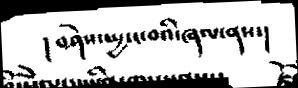། བཤེས་སྤྱ་ང་བའི་ཞལ་ནས་།
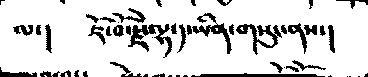ལ་།   ཇོ་བོ་རྗེ་ལྷ་༡་ཡིན་གསུང་ནས་།
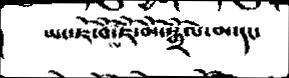ཡང་ཇོ་བོ་དང་ཇོ་མོ་སྒྲོལ་མ་དང་
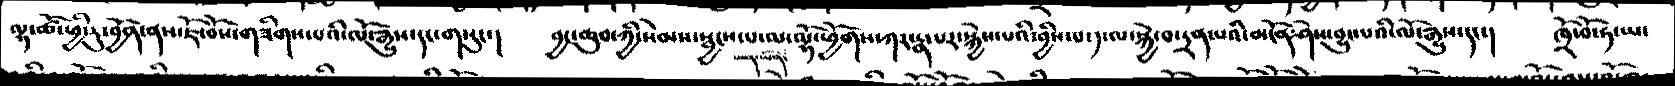ལྷ་ཚོ་ཕྱི་རུ་བྱོན་ནས་ཇོ་བོས་གཟིགས་པའི་ལོ་རྒྱུས་དང་གསུང་།    བྱང་ཆུབ་ཀྱི་སེམས་པ་ལ་ཡན་ཡིན་ལྷོ་ཕྱོགས་པར་རྣ་པར་སྐྱེས་པའི་བྱིས་པ་༡་ལ་སྐྱེ་བ་དྲན་པའི་མངོན་ཤེས་བྱུང་པའི་ལོ་རྒྱུས་དང་།   ཁྲོ་བོ་ཏ་ཡ་
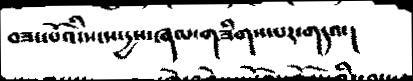བཟང་པོའི་སངས་དྱས་ཞལ་གཟིགས་པར་གདའ་།
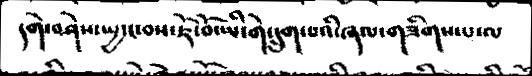དག་བཤེས་སྤྱ་ང་བས་ཇོ་བོས་ཡི་གེ་དྲུག་པའ་ཞལ་གཟིགས་པ་ལ
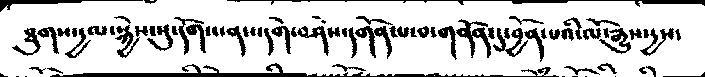ཐུགས་དྱལ་སྐྱེས་སུ་དོགས་ནས་དགེ་བཤེས་དགོན་པ་བ་གནོན་དུ་བྱོན་པའི་ལོ་རྒྱུས་དྱས་
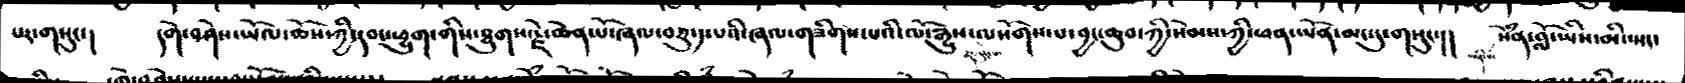པར་གསུང་།    དགེ་བཤེས་ཡོལ་ཆོས་ཀྱི་དབང་ཕྱུག་གིས་ཐུགས་རྗེ་ཆེན་པོ་ཞལ་བཅུ་༡་པའི་ཞལ་གཟིགས་པའི་ལོ་རྒྱུས་ལསོགས་པ་བྱང་ཆུབ་ཀྱི་སེམས་ཀྱི་ཕན་ཡོན་མང་དུ་གསུང་།།  སེཾན་བློ་ཡིས་མི་སྤང་
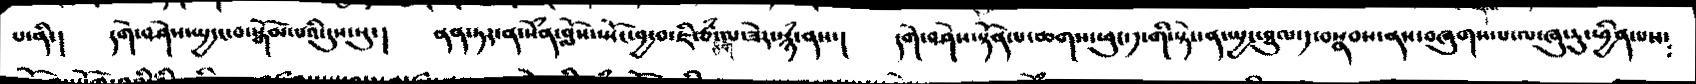པ་ནི་།   དགེ་བཤེས་སྤྱ་ང་བ་སྒོམ་པའི་དུས་སུ་།  ནན་ཏར་ན་སེཾན་བློས་སྤོང་བྱ་བ་ཇི་ཙཾ་ཅིག་ལ་ཟེར་སྙཾ་ནས་།   དགེ་བཤེས་སྟོན་པ་ཆགས་ཕུང་༡་གི་སྟེང་ན་སྤྱང་ཐུལ་༡་བསྣམས་ནས་བཞུགས་པ་ལ་ཞུ་རུ་ཕྱིན་པས༴
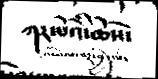ཀར་པོའི་ཆོས་འཕེལ་བར་བྱེད་པ་
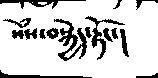སེཾས་བསྐྱེད་རྟོག་།
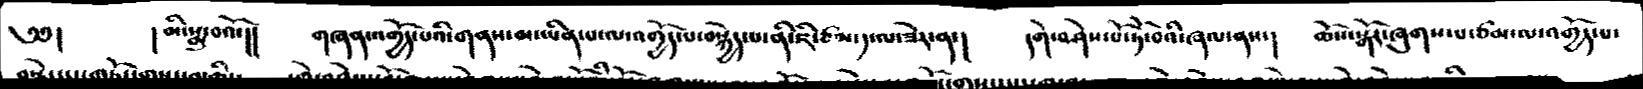༅༅།        །མི་སྨྲ་བའོ་།།    གཞན་འགྱོད་པའི་གནས་མ་ཡིན་པ་ལ་འགྱོད་པ་བསྐྱེད་པ་ནི་ཇི་ཙམ་༡་ལ་ཟེར་ན་།     དགེ་བཤེས་པོ་ཏོ་བའི་ཞལ་ནས་།    ཆོས་རྒོར་ཞུགས་པ་ཙམ་ལ་འགྱོད་པ་
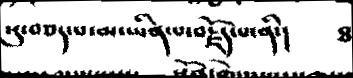སུ་བཅད་པ་མ་ཡིན་པ་བརྗོད་པ་ནི་།     ཐ
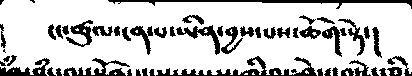ངང་ཚུལ་ངན་པ་ཡིན་བྱས་པས་ཆོག་སྟེ་།
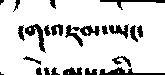ངག་འཇམ་ཡང་
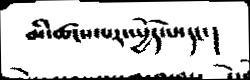མི་ཚངས་པར་སྤྱོད་པ་དང་།
